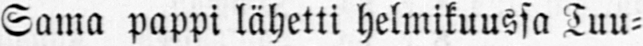Sama pappi lähetti helmikuussa Tuu-
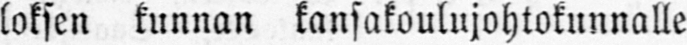loksen kunnan kansakoulujohtokunnalle
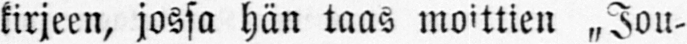kirjeen, jossa hän taas moittien „Jou-
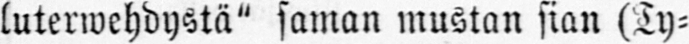luterwehdystä" saman mustan sian (Ty-
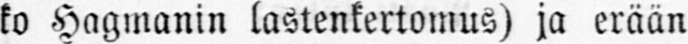ko Hagmanin lastenkertomus) ja erään
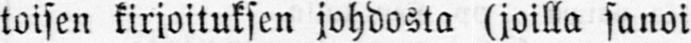toisen kirjoituksen johdosta (joilla sanoi
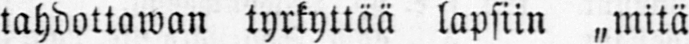tahdottowan tyrkyttää lapsiin „mitä
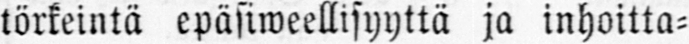tärkeintä epäsiweellisyyttä ja inhoitta-
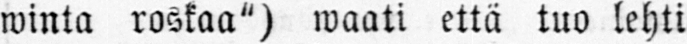winta roskaa") waati että tuo lehti
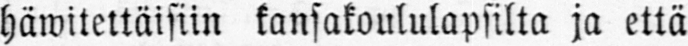häwiteltäisiin kansakoululapsilta ja että
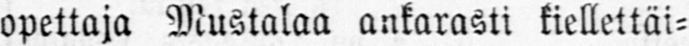opettaja Mustalaa ankarasti kiellettäi-
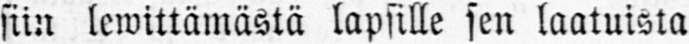siin lewittämästä lapsille sen laatuista
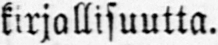kirjallisuutta.
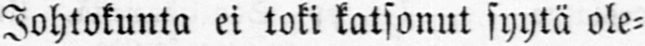Johtokunta ei toki katsonut syytä ole-
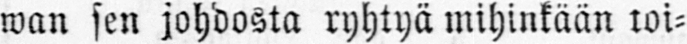man sen johdosta ryhtyä mihinkään toi-
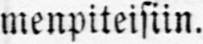menpiteisiin.
